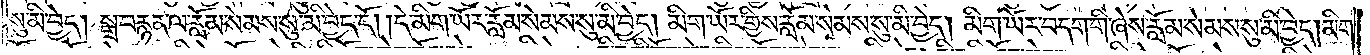སུ་མི་བྱེད། སྒྲ་བརྙན་ལ་རློམ་སེམས་སུ་མི་བྱེད་དོ། །དེ་མིག་ཡོར་རློམ་སེམས་སུ་མི་བྱེད། མིག་ཡོར་གྱིས་རློམ་སེམས་སུ་མི་བྱེད། མིག་ཡོར་བདག་གི་ཞེས་རློམ་སེམས་སུ་མི་བྱེད། མིག་
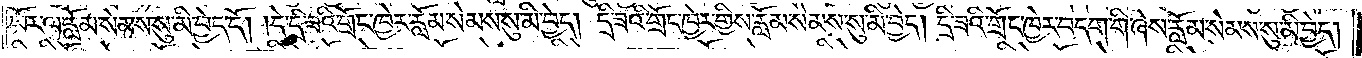ཡོར་ལ་རློམ་སེམས་སུ་མི་བྱེད་དོ། །དེ་དྲི་ཟའི་གྲོང་ཁྱེར་རློམ་སེམས་སུ་མི་བྱེད། དྲི་ཟའི་གྲོང་ཁྱེར་གྱིས་རློམ་སེམས་སུ་མི་བྱེད། དྲི་ཟའི་གྲོང་ཁྱེར་བདག་གི་ཞེས་རློམ་སེམས་སུ་མི་བྱེད།
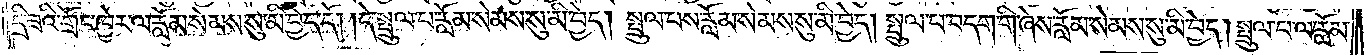དྲི་ཟའི་གྲོང་ཁྱེར་ལ་རློམ་སེམས་སུ་མི་བྱེད་དོ། །དེ་སྤྲུལ་པ་རློམ་སེམས་སུ་མི་བྱེད། སྤྲུལ་པས་རློམ་སེམས་སུ་མི་བྱེད། སྤྲུལ་པ་བདག་གི་ཞེས་རློམ་སེམས་སུ་མི་བྱེད། སྤྲུལ་པ་ལ་རློམ་
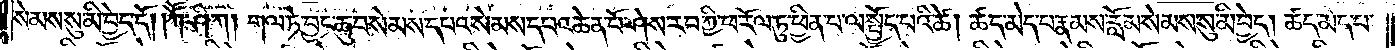སེམས་སུ་མི་བྱེད་དོ། །ཀཽ་ཤི་ཀ། གལ་ཏེ་བྱང་ཆུབ་སེམས་དཔའ་སེམས་དཔའ་ཆེན་པོ་ཤེས་རབ་ཀྱི་ཕ་རོལ་ཏུ་ཕྱིན་པ་ལ་སྤྱོད་པའི་ཚེ། ཚད་མེད་པ་རྣམས་རློམ་སེམས་སུ་མི་བྱེད། ཚད་མེད་པ་
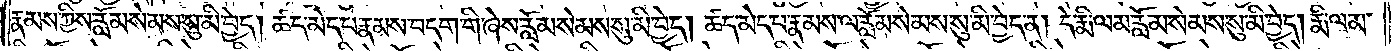རྣམས་ཀྱིས་རློམ་སེམས་སུ་མི་བྱེད། ཚད་མེད་པ་རྣམས་བདག་གི་ཞེས་རློམ་སེམས་སུ་མི་བྱེད། ཚད་མེད་པ་རྣམས་ལ་རློམ་སེམས་སུ་མི་བྱེད་ན། དེ་རྨི་ལམ་རློམ་སེམས་སུ་མི་བྱེད། རྨི་ལམ་
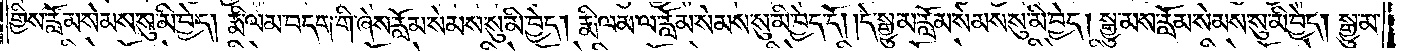གྱིས་རློམ་སེམས་སུ་མི་བྱེད། རྨི་ལམ་བདག་གི་ཞེས་རློམ་སེམས་སུ་མི་བྱེད། རྨི་ལམ་ལ་རློམ་སེམས་སུ་མི་བྱེད་དོ། །དེ་སྒྱུ་མ་རློམ་སེམས་སུ་མི་བྱེད། སྒྱུ་མས་རློམ་སེམས་སུ་མི་བྱེད། སྒྱུ་མ་
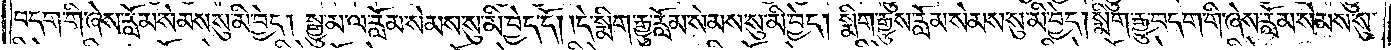བདག་གི་ཞེས་རློམ་སེམས་སུ་མི་བྱེད། སྒྱུ་མ་ལ་རློམ་སེམས་སུ་མི་བྱེད་དོ། །དེ་སྨིག་རྒྱུ་རློམ་སེམས་སུ་མི་བྱེད། སྨིག་རྒྱུས་རློམ་སེམས་སུ་མི་བྱེད། སྨིག་རྒྱུ་བདག་གི་ཞེས་རློམ་སེམས་སུ་
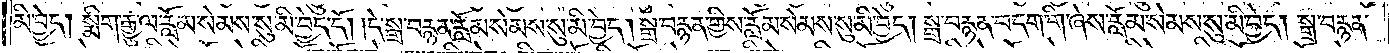མི་བྱེད། སྨིག་རྒྱུ་ལ་རློམ་སེམས་སུ་མི་བྱེད་དོ། །དེ་སྒྲ་བརྙན་རློམ་སེམས་སུ་མི་བྱེད། སྒྲ་བརྙན་གྱིས་རློམ་སེམས་སུ་མི་བྱེད། སྒྲ་བརྙན་བདག་གི་ཞེས་རློམ་སེམས་སུ་མི་བྱེད། སྒྲ་བརྙན་
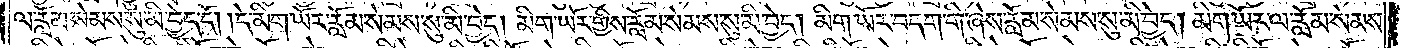ལ་རློམ་སེམས་སུ་མི་བྱེད་དོ། །དེ་མིག་ཡོར་རློམ་སེམས་སུ་མི་བྱེད། མིག་ཡོར་གྱིས་རློམ་སེམས་སུ་མི་བྱེད། མིག་ཡོར་བདག་གི་ཞེས་རློམ་སེམས་སུ་མི་བྱེད། མིག་ཡོར་ལ་རློམ་སེམས་
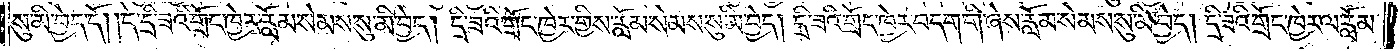སུ་མི་བྱེད་དོ། །དེ་དྲི་ཟའི་གྲོང་ཁྱེར་རློམ་སེམས་སུ་མི་བྱེད། དྲི་ཟའི་གྲོང་ཁྱེར་གྱིས་རློམ་སེམས་སུ་མི་བྱེད། དྲི་ཟའི་གྲོང་ཁྱེར་བདག་གི་ཞེས་རློམ་སེམས་སུ་མི་བྱེད། དྲི་ཟའི་གྲོང་ཁྱེར་ལ་རློམ་
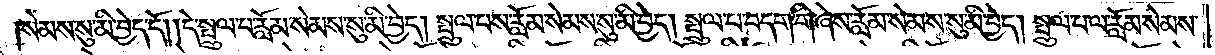སེམས་སུ་མི་བྱེད་དོ། །དེ་སྤྲུལ་པ་རློམ་སེམས་སུ་མི་བྱེད། སྤྲུལ་པས་རློམ་སེམས་སུ་མི་བྱེད། སྤྲུལ་པ་བདག་གི་ཞེས་རློམ་སེམས་སུ་མི་བྱེད། སྤྲུལ་པ་ལ་རློམ་སེམས་
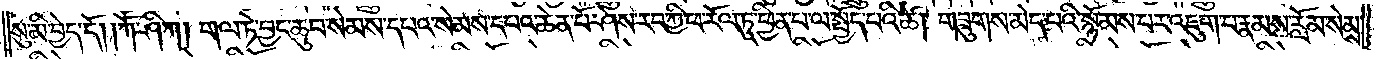སུ་མི་བྱེད་དོ། །ཀཽ་ཤི་ཀ། གལ་ཏེ་བྱང་ཆུབ་སེམས་དཔའ་སེམས་དཔའ་ཆེན་པོ་ཤེས་རབ་ཀྱི་ཕ་རོལ་ཏུ་ཕྱིན་པ་ལ་སྤྱོད་པའི་ཚེ། གཟུགས་མེད་པའི་སྙོམས་པར་འཇུག་པ་རྣམས་རློམ་སེམས་
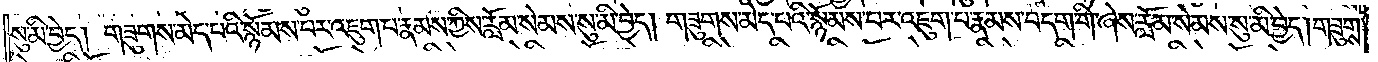སུ་མི་བྱེད། གཟུགས་མེད་པའི་སྙོམས་པར་འཇུག་པ་རྣམས་ཀྱིས་རློམ་སེམས་སུ་མི་བྱེད། གཟུགས་མེད་པའི་སྙོམས་པར་འཇུག་པ་རྣམས་བདག་གི་ཞེས་རློམ་སེམས་སུ་མི་བྱེད། གཟུགས་
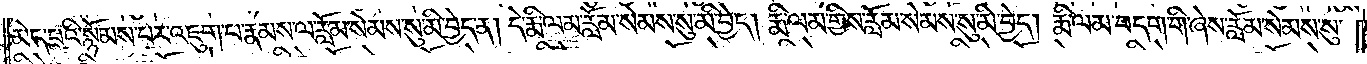མེད་པའི་སྙོམས་པར་འཇུག་པ་རྣམས་ལ་རློམ་སེམས་སུ་མི་བྱེད་ན། དེ་རྨི་ལམ་རློམ་སེམས་སུ་མི་བྱེད། རྨི་ལམ་གྱིས་རློམ་སེམས་སུ་མི་བྱེད། རྨི་ལམ་བདག་གི་ཞེས་རློམ་སེམས་སུ་
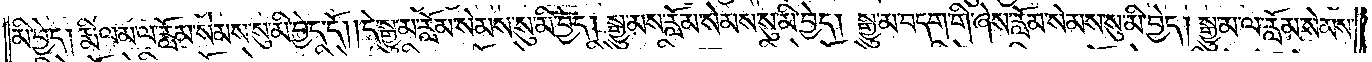མི་བྱེད། རྨི་ལམ་ལ་རློམ་སེམས་སུ་མི་བྱེད་དོ། །དེ་སྒྱུ་མ་རློམ་སེམས་སུ་མི་བྱེད། སྒྱུ་མས་རློམ་སེམས་སུ་མི་བྱེད། སྒྱུ་མ་བདག་གི་ཞེས་རློམ་སེམས་སུ་མི་བྱེད། སྒྱུ་མ་ལ་རློམ་སེམས་
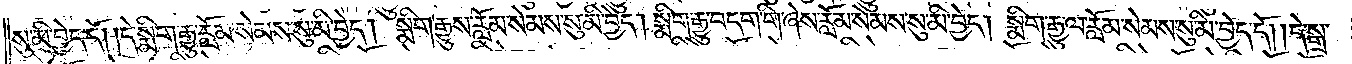སུ་མི་བྱེད་དོ། །དེ་སྨིག་རྒྱུ་རློམ་སེམས་སུ་མི་བྱེད། སྨིག་རྒྱུས་རློམ་སེམས་སུ་མི་བྱེད། སྨིག་རྒྱུ་བདག་གི་ཞེས་རློམ་སེམས་སུ་མི་བྱེད། སྨིག་རྒྱུ་ལ་རློམ་སེམས་སུ་མི་བྱེད་དོ། །དེ་སྒྲ་
